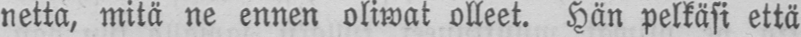netta, mitä ne ennen oliwat olleet. Hän pelkäsi että
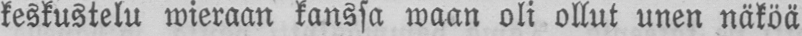keskustelu wieraan kanssa waan oli ollut unen näköä
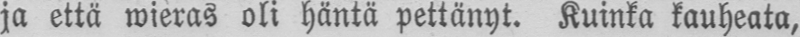ja että wieras oli häntä pettänyt. Kuinka kauheata,
